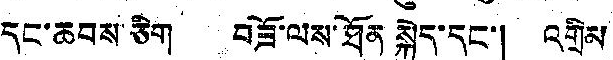དང་ཆབས་ཅིག བཟོ་ལས་ཐོན སྐྱེད་དང་། འགྲིམ
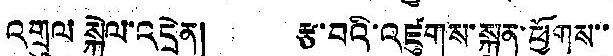འགྲུལ སྐྱེལ་འདྲེན། རྩ་བའི་འཛུགས་སྐྲུན་ཕྱོགས་་
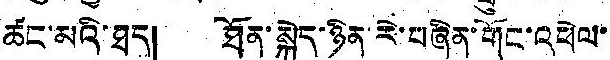ཚང་མའི་ཐད། ཐོན་སྐྱེད་ཉིན་རེ་བཞིན་གོང་འཕེལ་
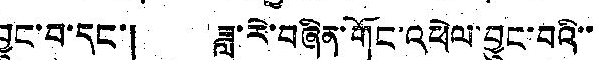བྱུང་བ་དང་། ཟླ་རེ་བཞིན་གོང་འཕེལ་བྱུང་བའི་་
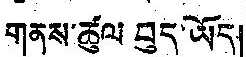གནས་ཚུལ བུད་ཡོད།
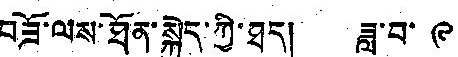བཟོ་ལས་ཐོན་སྐྱེད་ཀྱི་ཐད། ཟླ་བ་ ༩
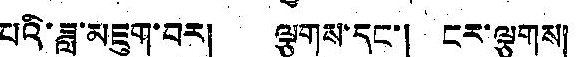པའི་ཟླ་མཇུག་བར། ལྕགས་དང་། ངར་ལྕགས།
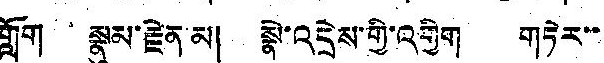གློག སྣུམ་རྗེན་མ། སྣེ་འདྲེས་གྱི་འགྱིག གཏེར་་
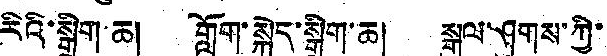རིའི་སྒྲིག་ཆ། གློག་སྐྱེད་སྒྲིག་ཆ། སྒུལ་ཤུགས་ཀྱི་
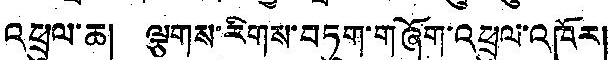འཕྲུལ་ཆ། ལྕགས་རིགས་བཏུག་གཞོག་འཕྲུལ་འཁོར།
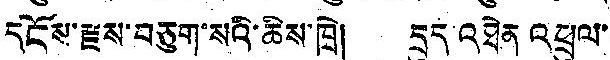དངོས་རྫས་བཅུག་སའི་ཆིས་ཁྲེ། དྲུད འཐེན འཕྲུལ་
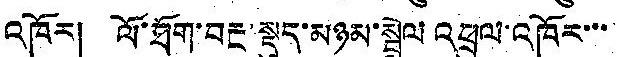འཁོར། ལོ་ཐོག་བརྔ་སྡུད་མཉམ་སྦྲེལ འཕྲུལ་འཁོར་་་
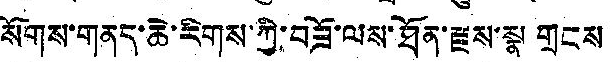སོགས་གནད་ཆེ་རིགས་ཀྱི་བཟོ་ལས་ཐོན་རྫས་སྣ གྲངས
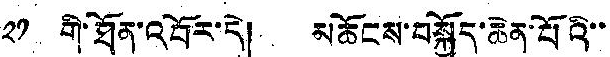༢༡ གི་ཐོན་འབོར་དེ། མཆོངས་བསྐྱོད་ཆེ་པོའི་་
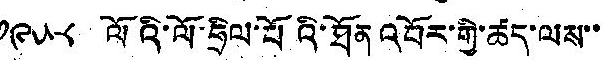༡༩༥༨ ལོའི་ལོ་ཧྲིལ་པོའི་ཐོན འབོར་གྱི་ཚད་ལས་་
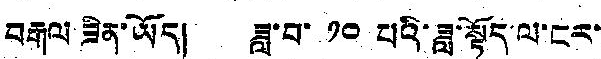བརྒལ་ཟིན་ཡོད། ཟླ་བ་ ༡༠ པའི་ཟླ་སྟོད་ལ་ངར་
